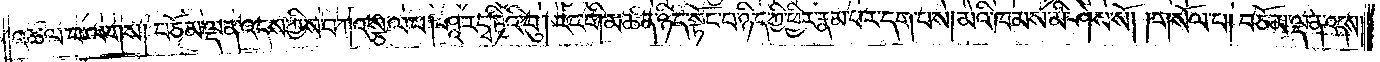འཚལ་བ་ལགས། བཅོམ་ལྡན་འདས་ཀྱིས་བཀའ་སྩལ་པ། ཤཱ་ར་དྭ་ཏིའི་བུ། རང་གི་མཚན་ཉིད་སྟོང་པ་ཉིད་ཀྱི་ཕྱིར་རྣམ་པར་དག་པས། མེའི་ཁམས་མི་ཤེས་སོ། །གསོལ་པ། བཅོམ་ལྡན་འདས།
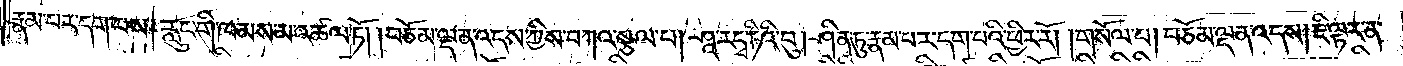རྣམ་པར་དག་པས། རླུང་གི་ཁམས་མ་འཚལ་ཏོ། །བཅོམ་ལྡན་འདས་ཀྱིས་བཀའ་སྩལ་པ། ཤཱ་ར་དྭ་ཏིའི་བུ། ཤིན་ཏུ་རྣམ་པར་དག་པའི་ཕྱིར་རོ། །གསོལ་པ། བཅོམ་ལྡན་འདས། ཇི་ལྟར་ན་
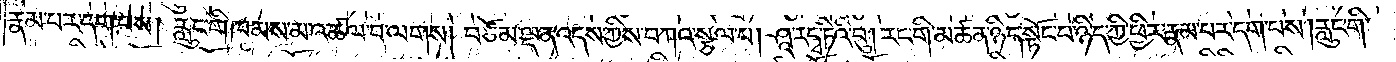རྣམ་པར་དག་པས། རླུང་གི་ཁམས་མ་འཚལ་བ་ལགས། བཅོམ་ལྡན་འདས་ཀྱིས་བཀའ་སྩལ་པ། ཤཱ་ར་དྭ་ཏིའི་བུ། རང་གི་མཚན་ཉིད་སྟོང་པ་ཉིད་ཀྱི་ཕྱིར་རྣམ་པར་དག་པས། རླུང་གི་
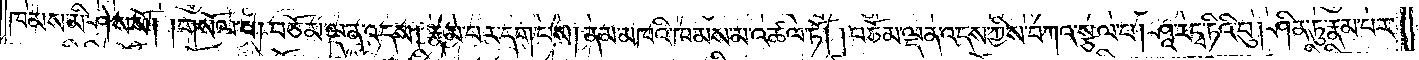ཁམས་མི་ཤེས་སོ། །གསོལ་པ། བཅོམ་ལྡན་འདས། རྣམ་པར་དག་པས། ནམ་མཁའི་ཁམས་མ་འཚལ་ཏོ། །བཅོམ་ལྡན་འདས་ཀྱིས་བཀའ་སྩལ་པ། ཤཱ་ར་དྭ་ཏིའི་བུ། ཤིན་ཏུ་རྣམ་པར་
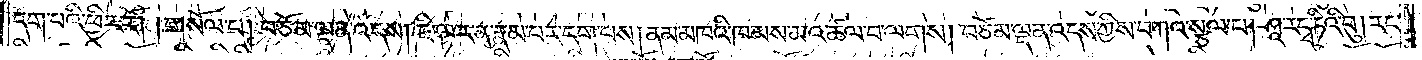དག་པའི་ཕྱིར་རོ། །གསོལ་པ། བཅོམ་ལྡན་འདས། ཇི་ལྟར་ན་རྣམ་པར་དག་པས། ནམ་མཁའི་ཁམས་མ་འཚལ་བ་ལགས། བཅོམ་ལྡན་འདས་ཀྱིས་བཀའ་སྩལ་པ། ཤཱ་ར་དྭ་ཏིའི་བུ། རང་
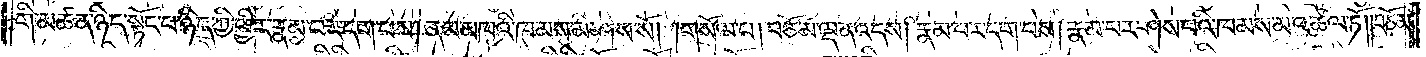གི་མཚན་ཉིད་སྟོང་པ་ཉིད་ཀྱི་ཕྱིར་རྣམ་པར་དག་པས། ནམ་མཁའི་ཁམས་མི་ཤེས་སོ། །གསོལ་པ། བཅོམ་ལྡན་འདས། རྣམ་པར་དག་པས། རྣམ་པར་ཤེས་པའི་ཁམས་མ་འཚལ་ཏོ། །བཅོམ་
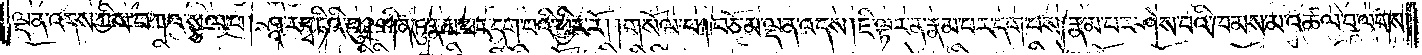ལྡན་འདས་ཀྱིས་བཀའ་སྩལ་པ། ཤཱ་ར་དྭ་ཏིའི་བུ། ཤིན་ཏུ་རྣམ་པར་དག་པའི་ཕྱིར་རོ། །གསོལ་པ། བཅོམ་ལྡན་འདས། ཇི་ལྟར་ན་རྣམ་པར་དག་པས། རྣམ་པར་ཤེས་པའི་ཁམས་མ་འཚལ་བ་ལགས།
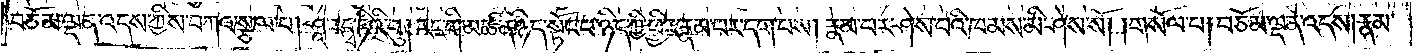བཅོམ་ལྡན་འདས་ཀྱིས་བཀའ་སྩལ་པ། ཤཱ་ར་དྭ་ཏིའི་བུ། རང་གི་མཚན་ཉིད་སྟོང་པ་ཉིད་ཀྱི་ཕྱིར་རྣམ་པར་དག་པས། རྣམ་པར་ཤེས་པའི་ཁམས་མི་ཤེས་སོ། །གསོལ་པ། བཅོམ་ལྡན་འདས། རྣམ་
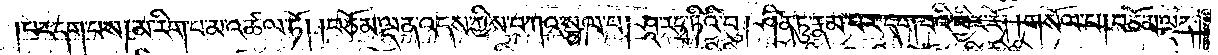པར་དག་པས། མ་རིག་པ་མ་འཚལ་ཏོ། །བཅོམ་ལྡན་འདས་ཀྱིས་བཀའ་སྩལ་པ། ཤཱ་ར་དྭ་ཏིའི་བུ། ཤིན་ཏུ་རྣམ་པར་དག་པའི་ཕྱིར་རོ། །གསོལ་པ། བཅོམ་ལྡན་
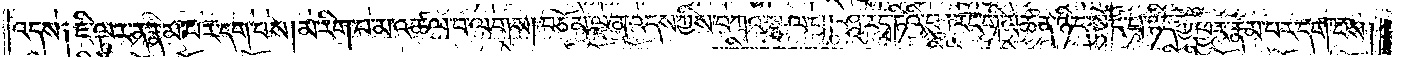འདས༑ ཇི་ལྟར་ན་རྣམ་པར་དག་པས། མ་རིག་པ་མ་འཚལ་བ་ལགས། བཅོམ་ལྡན་འདས་ཀྱིས་བཀའ་སྩལ་པ། ཤཱ་ར་དྭ་ཏིའི་བུ། རང་གི་མཚན་ཉིད་སྟོང་པ་ཉིད་ཀྱི་ཕྱིར་རྣམ་པར་དག་པས།
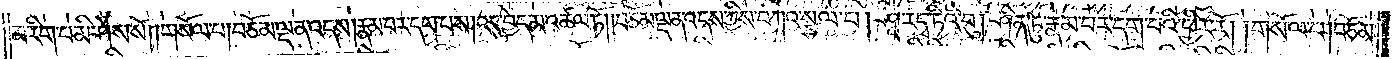མ་རིག་པ་མི་ཤེས་སོ། །གསོལ་པ། བཅོམ་ལྡན་འདས། རྣམ་པར་དག་པས། འདུ་བྱེད་མ་འཚལ་ཏོ། །བཅོམ་ལྡན་འདས་ཀྱིས་བཀའ་སྩལ་པ། ཤཱ་ར་དྭ་ཏིའི་བུ། ཤིན་ཏུ་རྣམ་པར་དག་པའི་ཕྱིར་རོ། །གསོལ་པ། བཅོམ་
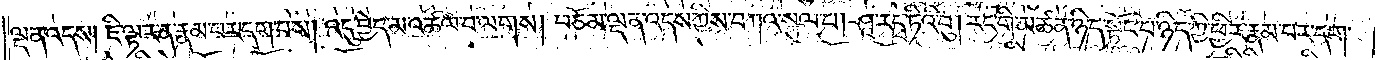ལྡན་འདས། ཇི་ལྟར་ན་རྣམ་པར་དག་པས། འདུ་བྱེད་མ་འཚལ་བ་ལགས། བཅོམ་ལྡན་འདས་ཀྱིས་བཀའ་སྩལ་པ། ཤཱ་ར་དྭ་ཏིའི་བུ། རང་གི་མཚན་ཉིད་སྟོང་པ་ཉིད་ཀྱི་ཕྱིར་རྣམ་པར་དག་
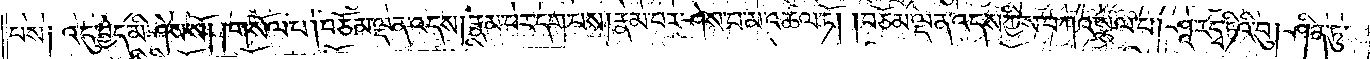པས༑ འདུ་བྱེད་མི་ཤེས་སོ། །གསོལ་པ། བཅོམ་ལྡན་འདས། རྣམ་པར་དག་པས། རྣམ་པར་ཤེས་པ་མ་འཚལ་ཏོ། །བཅོམ་ལྡན་འདས་ཀྱིས་བཀའ་སྩལ་པ། ཤཱ་ར་དྭ་ཏིའི་བུ། ཤིན་ཏུ་
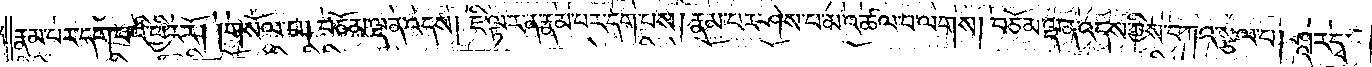རྣམ་པར་དག་པའི་ཕྱིར་རོ། །གསོལ་པ། བཅོམ་ལྡན་འདས། ཇི་ལྟར་ན་རྣམ་པར་དག་པས། རྣམ་པར་ཤེས་པ་མ་འཚལ་བ་ལགས། བཅོམ་ལྡན་འདས་ཀྱིས་བཀའ་སྩལ་པ། ཤཱ་ར་དྭ་
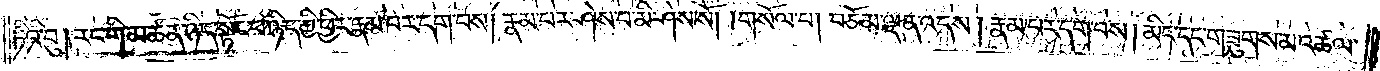ཏིའི་བུ། རང་གི་མཚན་ཉིད་སྟོང་པ་ཉིད་ཀྱི་ཕྱིར་རྣམ་པར་དག་པས། རྣམ་པར་ཤེས་པ་མི་ཤེས་སོ། །གསོལ་པ། བཅོམ་ལྡན་འདས། རྣམ་པར་དག་པས། མིང་དང་གཟུགས་མ་འཚལ་
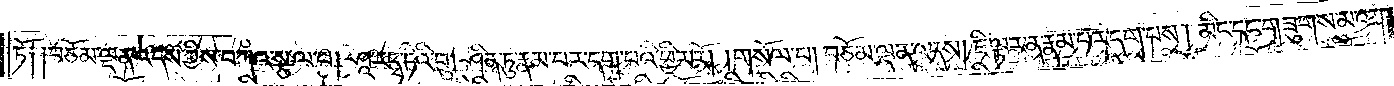ཏོ༑ ༑བཅོམ་ལྡན་འདས་ཀྱིས་བཀའ་སྩལ་པ། ཤཱ་ར་དྭ་ཏིའི་བུ། ཤིན་ཏུ་རྣམ་པར་དག་པའི་ཕྱིར་རོ། །གསོལ་པ། བཅོམ་ལྡན་འདས། ཇི་ལྟར་ན་རྣམ་པར་དག་པས། མིང་དང་གཟུགས་མ་འཚལ་
